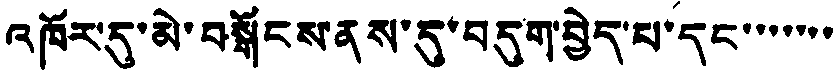འཁོར་དུ་མེ་བསྒོངས་ནས་དུ་བདུག་བྱེད་པ་དང་་་་་་་
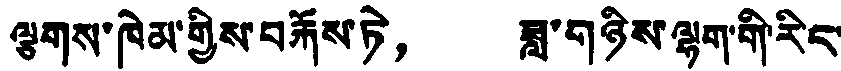ལྕགས་ཁེམ་གྱིས་བརྐོས་ཏེ， ཟླ་གཉིས་ལྷག་གི་རིང་
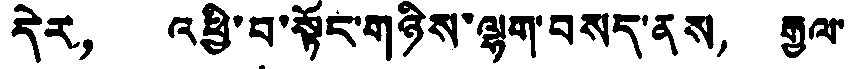དེར， འཕྱི་བ་སྟོང་གཉིས་ལྷག་བསད་ནས， རྒྱལ་
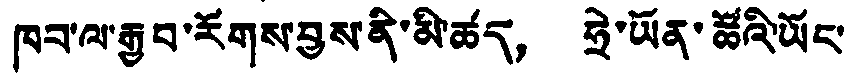ཁབ་ལ་རྒྱབ་རོགས་བྱས་ནི་མི་ཚད， ཧྲེ་ཡོན་ཚོའི་ཡོང་
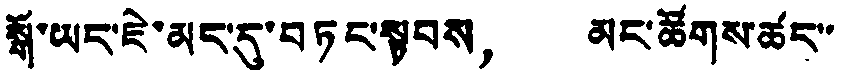སྒོ་ཡང་ཇེ་མང་དུ་བཏང་སྟབས， མང་ཚོགས་ཚང་་
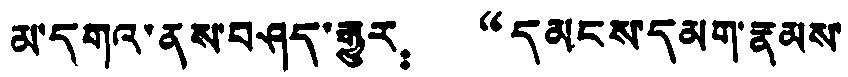མ་དགའ་ནས་བཤད་རྒྱུར： “དམངས་དམག་རྣམས་
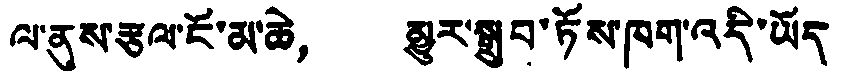ལ་ནུས་རྩལ་ངོ་མ་ཆེ， མྱུར་སྒྲུབ་ཏོས་ཁག་འདི་ཡོད
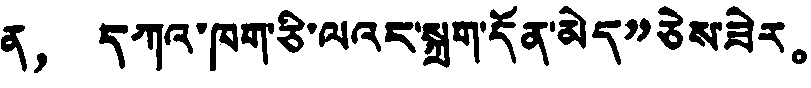ན， དཀའ་ཁག་ཅི་ལའང་སྐྲག་དོན་མེད”ཅེས་ཟེར。
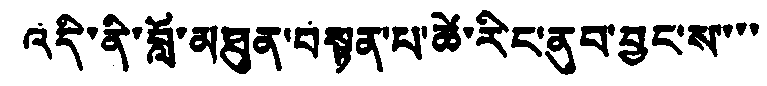འདི་ནི་བློ་མཐུན་བསྟན་པ་ཚེ་རིང་ནུབ་བྱང་ས་་་་
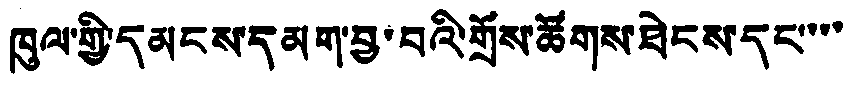ཁུལ་གྱི་དམངས་དམག་བྱ་བའི་གྲོས་ཚོགས་ཐེངས་དང་་་་
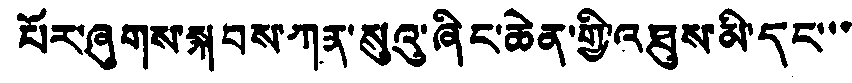པོར་ཞུགས་སྐབས་ཀན་སུའུ་ཞིང་ཆེན་གྱི་འཐུས་མི་དང་་་
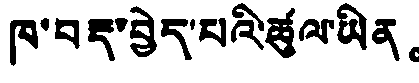ཁ་བརྡ་བྱེད་པའི་ཚུལ་ཡིན。
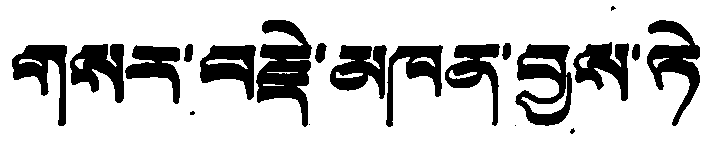གསར་བརྗེ་མཁན་བྱས་ཏེ
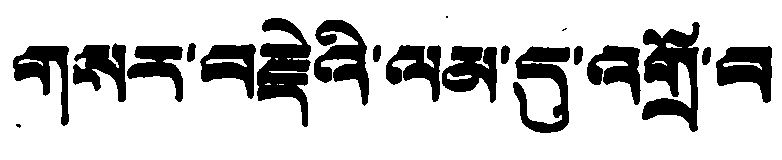གསར་བརྗེའི་ལམ་དུ་འགྲོ་བ
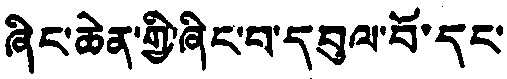ཞིང་ཆེན་གྱི་ཞིང་པ་དབུལ་བོ་དང་
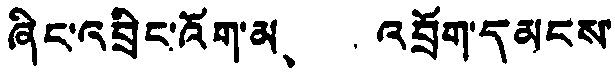ཞིང་འབྲིང་འོག་མ、 འབྲོག་དམངས་
